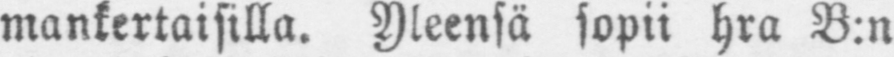mankertaisilla. Yleensä sopii hra B:n
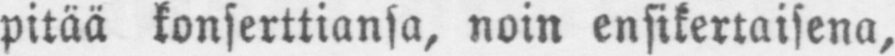pitää konserttiansa, noin ensikertaisena,
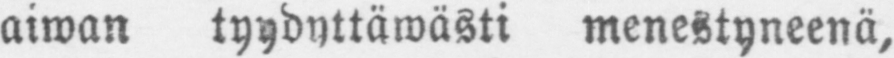aiwan tyydyttäwästi menestyneenä,
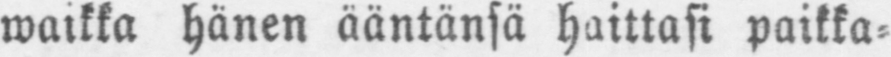waikka hänen ääntänsä haittasi paikka-
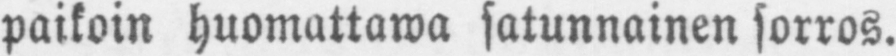paikoin huomattawa satunnainen sorros.
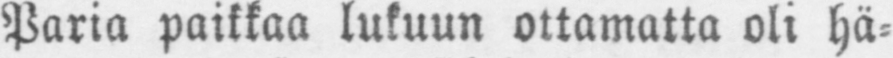Paria paikkaa lukuun ottamatta oli hä-
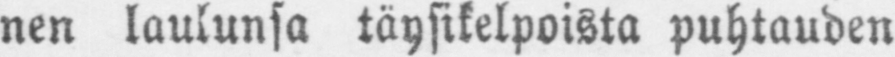nen laulunsa täysikelpoista puhtauden
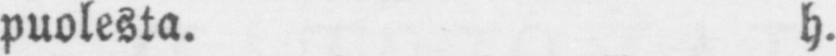puolesta. h.
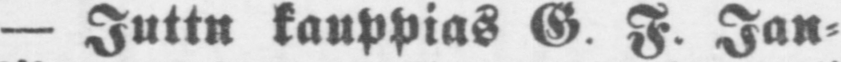— Juttu kauppias G. F. Jan-
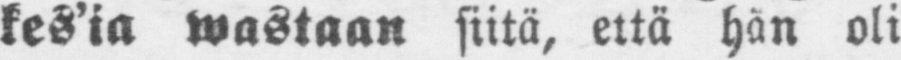kes'ia wastaan siitä, että hän oli
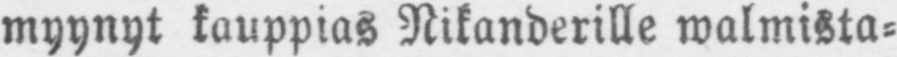myynyt kauppias Nikanderille walmista-
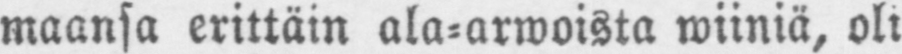maansa erittäin ala-armoista wiiniä, oli
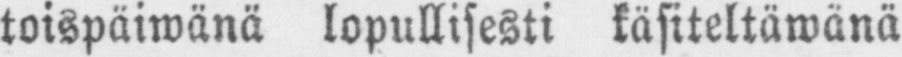toispäiwänä lopullisesti käsiteltäwanä
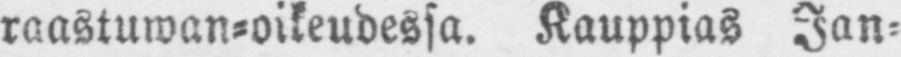raastuwan-oikeudessa. Kauppias Jan-
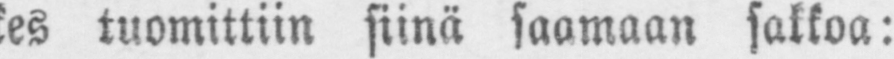kes tuomittiin siinä saamaan sakkoa:
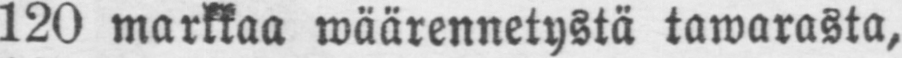120 markkaa wäärennetystä tawarasta,
